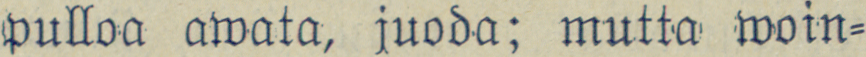pulloa awata, juoda; mutta woin-
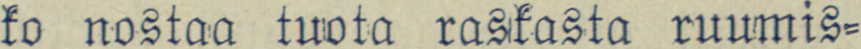ko nostaa tuota raskasta ruumis-
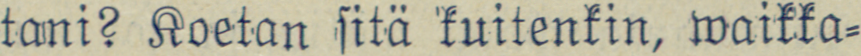tani? Koetan sitä kuitenkin, waikka-
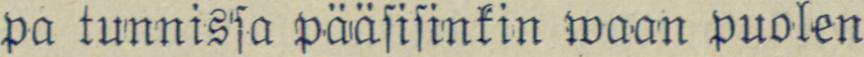pa tunnissa pääsisinkin waan puolen
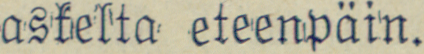askelta eteenpäin.
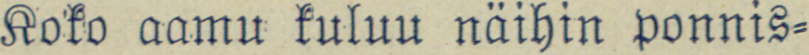Koko aamu kuluu näihin ponnis-
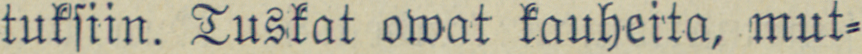tuksiin. Tuskat owat kauheita, mut-
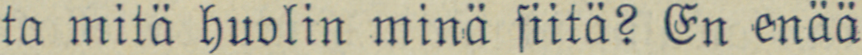ta mitä huolin minä siitä? En enää
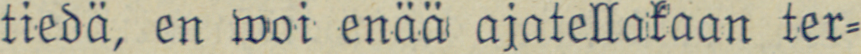tiedä, en woi enää ajatellakaan ter-
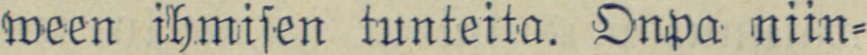ween ihmisen tunteita. Onpa niin-
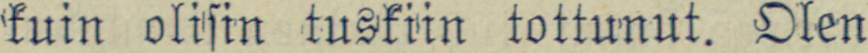kuin olisin tuskiin tottunut. Olen
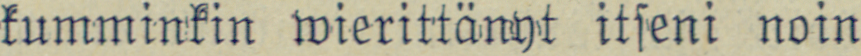kumminkin wierittänyt itseni noin
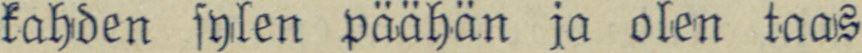kahden sylen päähän ja olen taas
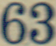63
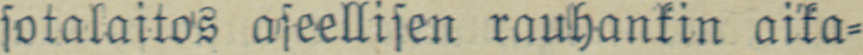sotalaitos aseellisen rauhankin aika-
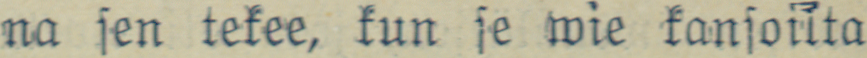na sen tekee, kun se wie kansoilta
